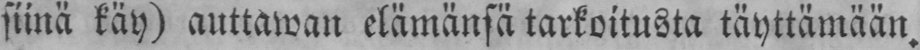siinä käy) auttawan elämänsä tarkoitusta täyttämään.
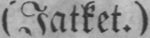(Jatket.)
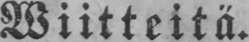Wiitteitä.
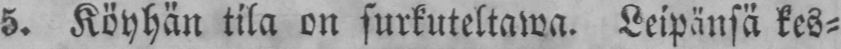5. Köyhän tila on surkuteltawa. Leipänsä kes-
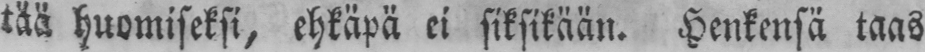tää huomiseksi, ehkäpä ei siksikään. Henkensä taas
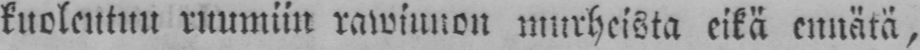kuoleutuu ruumiin rawinnon murheista eikä ennätä,
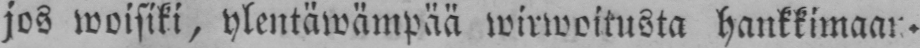jos woisiki, ylentäwämpää wirwoitusta hankkimaan.
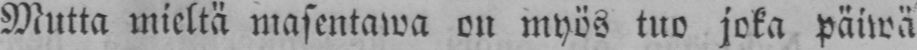Mutta mieltä masentawa on myös tuo joka päiwä
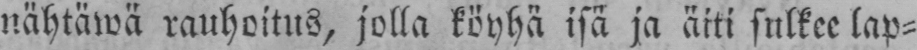nähtäwä rauhoitus, jolla köyhä isä ja äiti sulkee lap-
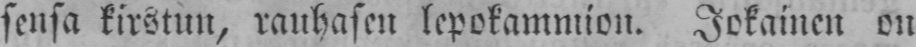sensa kirstun, rauhasen lepokammion. Jokainen on
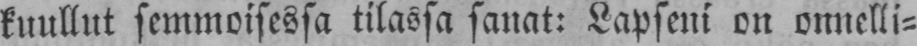kuullut semmoisessa tilassa sanat: Lapseni on onnelli-
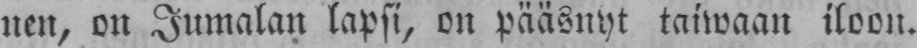nen, on Jumalan lapsi, on pääsnyt taiwaan iloon.
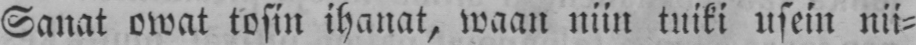Sanat owat tosin ihanat, waan niin tuiki usein nii-
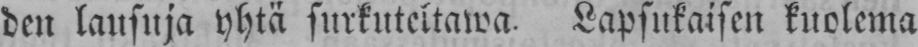den lausuja yhtä surkuteltawa Lapsukaisen kuolema
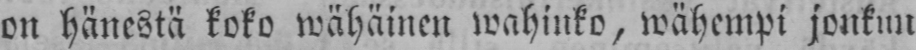on hänestä koko wähäinen wahinko, wähempi jonkun
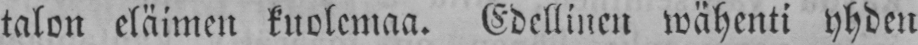talon eläimen kuolemaa. Edellinen wähenti yhden
